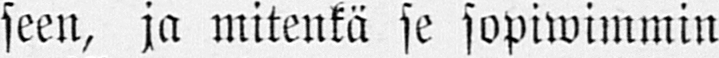seen, ja mitenkä se sopiwimmin
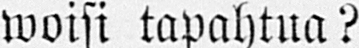woisi tapahtua?
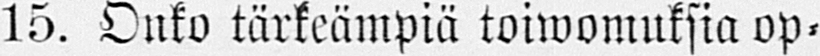15. Onko tärkeämpiä toiwomuksia op-
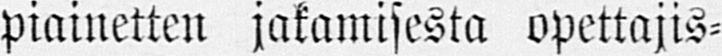piainetten jakamisesta opettajis-
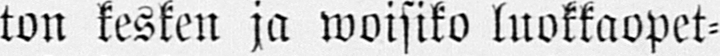ton kesken ja woisiko luokkaopet-
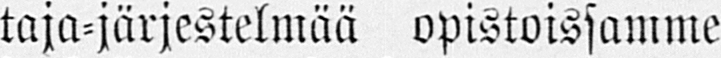taja-jäejestelmää opistoissamme
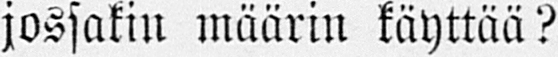jossakin määrin käyttää?
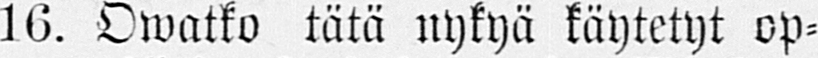10. Owatko tätä nykyä käytetyt op-
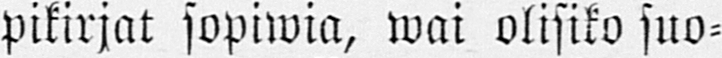pikirjat sopiwia, wai olisiko suo-
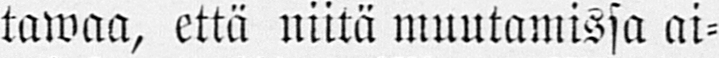tawaa, että niitä muutamissa ai-
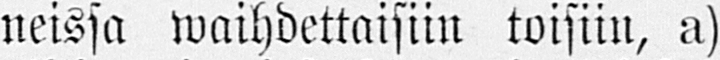neissa waihdettaisiin toisiin, a)
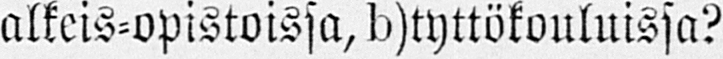alkeis-opistoissa, b)tyttökouluissa?
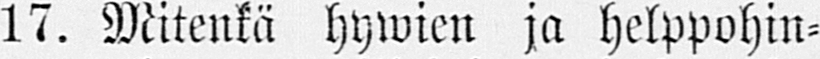17. Mitenkä hywien ja helppohin-
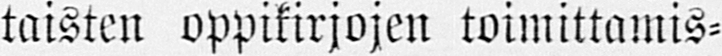taisten oppikirjojen toimittamis-
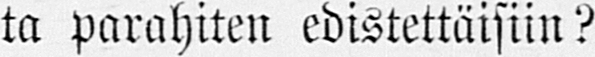ta parahiten edistettäisiin?
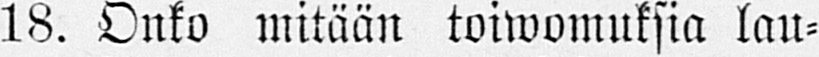18. Onko mitään toiwomuksia lau-
